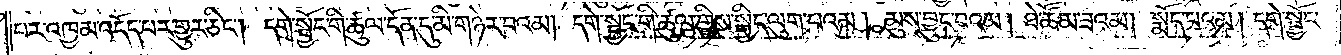པར་འཁྱམ་འདོད་པར་གྱུར་ཅིང༌། དགེ་སྦྱོང་གི་ཚུལ་དོན་དུ་མི་གཉེར་བའམ། དགེ་སྦྱོང་གི་ཚུལ་གྱིས་སྒྱིད་ལུག་པའམ། མུས་བྱུང་བའམ། ཐེ་ཚོམ་ཟའམ། སྨོད་པའམ། དགེ་སྦྱོང་
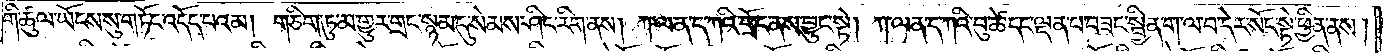གི་ཚུལ་ཡོངས་སུ་གཏོང་འདོད་པའམ། གཅིག་ཏུ་མ་གྱུར་གྲང་སྙམ་དུ་སེམས་ཤིང་རིག་ནས། ཀ་ལན་ད་ཀའི་གྲོང་ནས་བྱུང་སྟེ། ཀ་ལན་ད་ཀའི་བུ་ཚེ་དང་ལྡན་པ་བཟང་སྦྱིན་ག་ལ་བ་དེར་སོང་སྟེ་ཕྱིན་ནས།
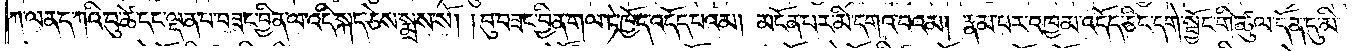ཀ་ལན་དཀའི་བུ་ཚེ་དང་ལྡན་པ་བཟང་བྱིན་ལ་འདི་སྐད་ཅེས་སྨྲས་སོ། །བུ་བཟང་བྱིན་གལ་ཏེ་ཁྱོད་འདོད་པའམ། མངོན་པར་མི་དགའ་བའམ། རྣམ་པར་འཁྱམ་འདོད་ཅིང་དགེ་སྦྱོང་གི་ཚུལ་དོན་དུ་མི་
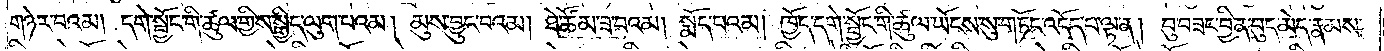གཉེར་བའམ། དགེ་སྦྱོང་གི་ཚུལ་གྱིས་སྒྱིད་ལུག་པའམ། མུས་བྱུང་བའམ། ཐེ་ཚོམ་ཟ་བའམ། སྨོད་པའམ། ཁྱོད་དགེ་སྦྱོང་གི་ཚུལ་ཡོངས་སུ་གཏོང་འདོད་པ་ལྟ་ན། བུ་བཟང་བྱིན་བུད་མེད་རྣམས་
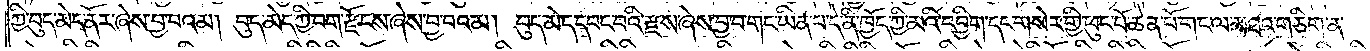ཀྱི་བུད་མེད་ནོར་ཞེས་བྱ་བའམ། བུད་མེད་ཀྱི་བག་རྫོངས་ཞེས་བྱ་བའམ། བུད་མེད་དབང་བའི་རྫས་ཞེས་བྱ་བ་གང་ཡིན་པ་དེ་ནི་ཁྱོད་ཀྱི་མའི་དབྱིག་དང་གསེར་གྱི་ཕུང་པོ་ཆེན་པོ་གང་ལ་མཐའ་གཅིག་ན་
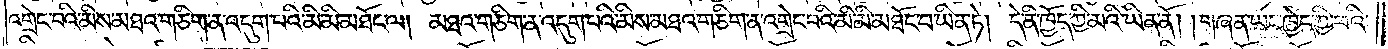འགྲེང་བའི་མིས་མཐའ་གཅིག་ན་འདུག་པའི་མི་མི་མཐོང་ལ། མཐའ་གཅིག་ན་འདུག་པའི་མིས་མཐའ་གཅིག་ན་འགྲེང་བའི་མི་མི་མཐོང་བ་ཡིན་ཏེ། དེ་ནི་ཁྱོད་ཀྱི་མའི་ཡིན་ནོ། །གཞན་ཡང་ཁྱེད་ཀྱི་ཕའི་
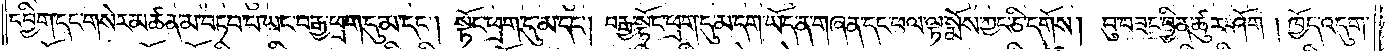དབྱིག་དང་གསེར་མཚན་མ་བཏབ་པ་ཡང་བརྒྱ་ཕྲག་དུ་མ་དང༌། སྟོང་ཕྲག་དུ་མ་དང༌། བརྒྱ་སྟོང་ཕྲག་དུ་མ་དག་ཡོད་ན་གཞན་དང་ཕལ་ལྟ་སྨོས་ཀྱང་ཅི་དགོས། བུ་བཟང་བྱིན་ཚུར་ཤོག །ཁྱོད་འདུག་
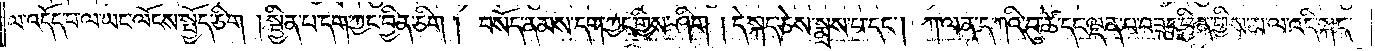ལ་འདོད་པ་ལ་ཡང་ལོངས་སྤྱོད་ཅིང༌། སྦྱིན་པ་དག་ཀྱང་བྱིན་ཅིག། བསོད་ནམས་དག་ཀྱང་གྱིས་ཤིག །དེ་སྐད་ཅེས་སྨྲས་པ་དང༌། ཀ་ལན་ད་ཀའི་བུ་ཚེ་དང་ལྡན་པ་བཟང་བྱིན་གྱིས་མ་ལ་འདི་སྐད་
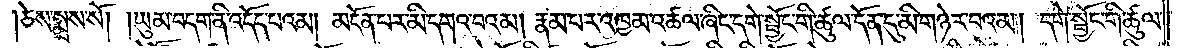།ཅེས་སྨྲས་སོ། །ཡུམ་བདག་ནི་འདོད་པའམ། མངོན་པར་མི་དགའ་བའམ། རྣམ་པར་འཁྱམ་འཚལ་ཞིང་དགེ་སྦྱོང་གི་ཚུལ་དོན་དུ་མི་གཉེར་བའམ། དགེ་སྦྱོང་གི་ཚུལ་
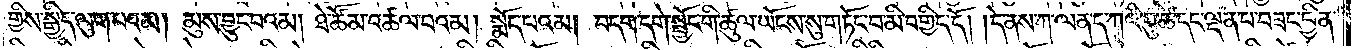གྱིས་སྒྱིད་ལུག་པའམ། མུས་བྱུང་བའམ། ཐེ་ཚོམ་འཚལ་བའམ། སྨོད་པའམ། བདག་དགེ་སྦྱོང་གི་ཚུལ་ཡོངས་སུ་གཏོང་བ་མི་བགྱིད་དོ། །དེ་ནས་ཀ་ལན་ད་ཀའི་བུ་ཚེ་དང་ལྡན་པ་བཟང་བྱིན་
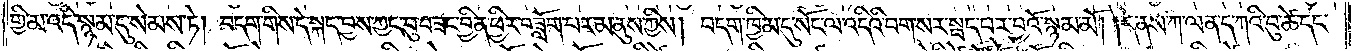གྱི་མ་འདི་སྙམ་དུ་སེམས་ཏེ། བདག་གིས་དེ་སྐད་བྱས་ཀྱང་བུ་བཟང་བྱིན་ཕྱིར་བཟློག་པར་མ་ནུས་ཀྱིས། བདག་ཁྱིམ་དུ་སོང་ལ་འདིའི་བག་སར་སྤད་པར་བྱའོ་སྙམ་མོ། །དེ་ནས་ཀ་ལན་ད་ཀའི་བུ་ཚེ་དང་
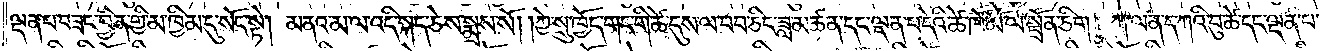ལྡན་པ་བཟང་བྱིན་གྱི་མ་ཁྱིམ་དུ་སོང་སྟེ། མནའ་མ་ལ་འདི་སྐད་ཅེས་སྨྲས་སོ། །ཀྱེ་སྲུ་ཁྱོད་གང་གི་ཚེ་དུས་ལ་བབ་ཅིང་ཟླ་མཚན་དང་ལྡན་པ་དེའི་ཚེ་ཁོ་མོ་ལ་སྦྲོན་ཅིག། ཀ་ལན་ད་ཀའི་བུ་ཚེ་དང་ལྡན་པ་
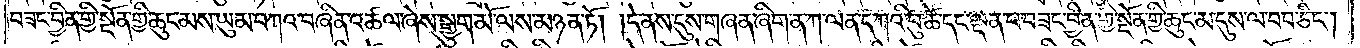བཟང་བྱིན་གྱི་སྔོན་གྱི་ཆུང་མས་ཡུམ་བཀའ་བཞིན་འཚལ་ཞེས་སྒྱུག་མོ་ལས་མཉན་ཏོ། །དེ་ནས་དུས་གཞན་ཞིག་ན་ཀ་ལན་ད་ཀའི་བུ་ཚེ་དང་ལྡན་པ་བཟང་བྱིན་གྱི་སྔོན་གྱི་ཆུང་མ་དུས་ལ་བབ་ཅིང༌།
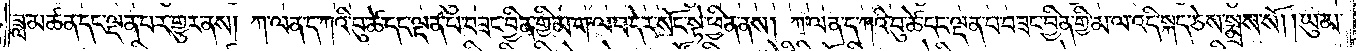ཟླ་མཚན་དང་ལྡན་པར་གྱུར་ནས། ཀ་ལན་ད་ཀའི་བུ་ཚེ་དང་ལྡན་པ་བཟང་བྱིན་གྱི་མ་ག་ལ་བ་དེར་སོང་སྟེ་ཕྱིན་ནས། ཀ་ལན་ད་ཀའི་བུ་ཚེ་དང་ལྡན་པ་བཟང་བྱིན་གྱི་མ་ལ་འདི་སྐད་ཅེས་སྨྲས་སོ། །ཡུམ་
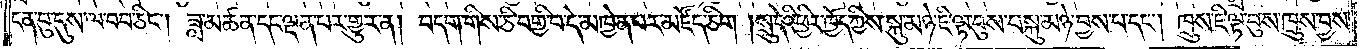ངན་བུ་དུས་ལ་བབ་ཅིང༌། ཟླ་མཚན་དང་ལྡན་པར་གྱུར་ན། བདག་གིས་ཅི་བགྱི་བ་དེ་མཁྱེན་པར་མཛོད་ཅིག །སྲུ་དེའི་ཕྱིར་ཁྱོད་ཀྱིས་སྐུ་མཉེ་ཇི་ལྟ་བུས་བསྐུ་མཉེ་བྱས་པ་དང༌། ཁྲུས་ཇི་ལྟ་བུས་ཁྲུས་བྱས་
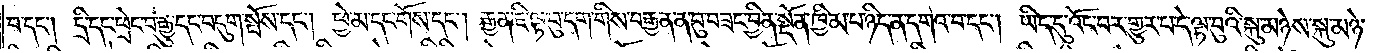བ་དང༌། དྲི་དང་ཕྲེང་བ་རྒྱུ་དང་བདུག་སྤོས་དང༌། ཕྱེ་མ་དང་གོས་དང༌། རྒྱན་ཇི་ལྟ་བུ་དག་གིས་བརྒྱན་ན་བུ་བཟང་བྱིན་སྔོན་ཁྱིམ་པ་ཉིད་ན་དགའ་བ་དང༌། ཡིད་དུ་འོང་བར་གྱུར་པ་དེ་ལྟ་བུའི་སྐུ་མཉེས་སྐུ་མཉེ་
